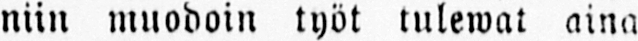niin muodoin työt tulewat aina
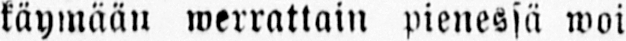käymään werrattain pienessä woi-
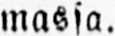massa.
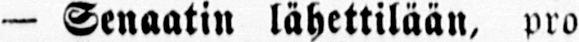— Senaatin lähettilään, pro-
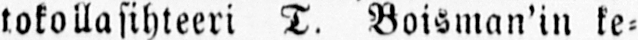tokollasihteeri T. Boisman'in ke-
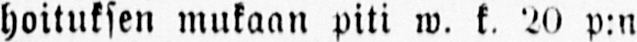hoituksen mukaan piti w. k. 20 p:n
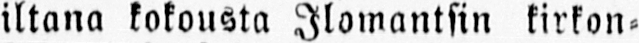iltana kokousta Ilomantsin kirkon-
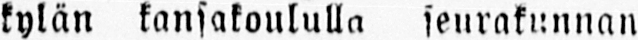kylän kansakoululla seurakunnan
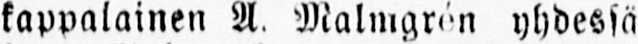kappalainen A. Malmgrén yhdessä
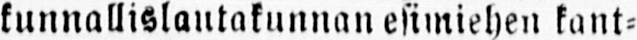kunnallislautakunnan esimiehen kant-
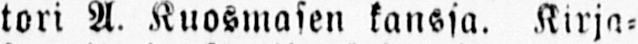tori A. Kuosmasen kanssa. Kirja-
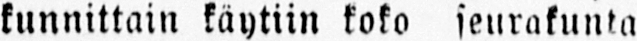kunnittain käytiin koko seurakunta
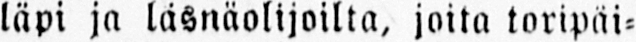läpi ja läsnäolijoilta, joita toripäi-
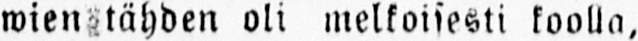wien tähden oli melkoisesti koolla,
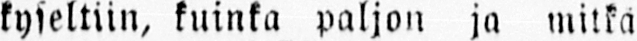kyseltiin, kuinka paljon ja mitkä
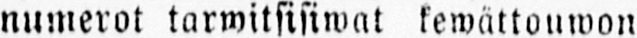numerot tarwitsisiwat kewättouwon
